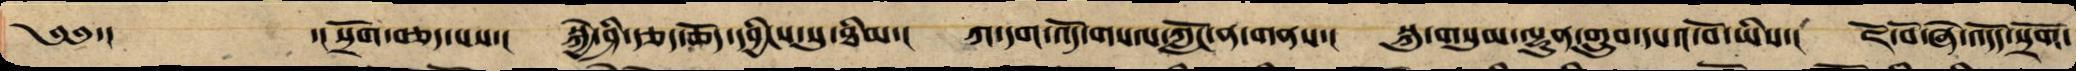༄༅་། ་།སྲོག་བཅད་པས་། སྐྱེ་ཤི་རྩད་ཆོད་དབྱིངས་སུ་ཐིམ་། ཀ་དག་འོད་གསལ་ཀློང་ན་གནས་། སྐུ་གསུམ་ལྷུན་གྲུབ་དཔའ་བོ་ཡིས་། ཇོ་བོ་ཞེ་འདོད་སྲོག་
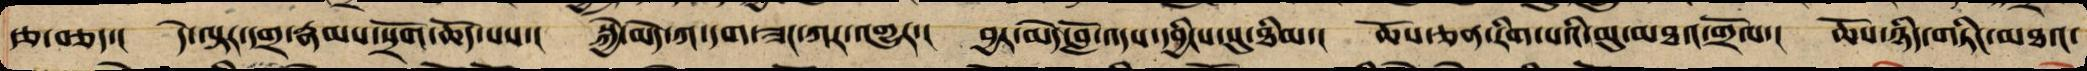རྩ་བཅད་། དེ་ལྟར་དགྲ་རྣམས་སྲོག་ཆོད་པས་། སྐྱེ་མེད་ཀ་དག་ཟང་ཀར་འགྱུར་། བྱར་མེད་བློ་འདས་དབྱིངས་སུ་ཐིམ་། ཆོས་ཅན་རིག་པའི་མུ་མཐའ་གྲོལ་། ཆོས་ཉིད་གཏིང་མཐའ་
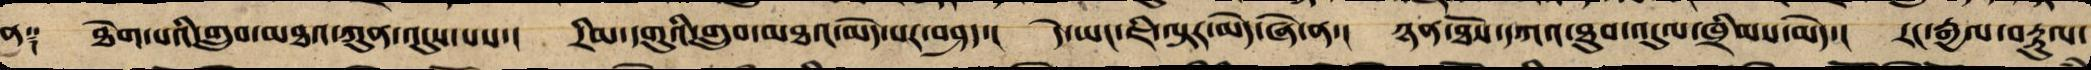ན༑ ཐེག་པའི་གྲུབ་མཐའ་ཀུན་འདུས་པས་། རིམ་དགུའི་གྲུབ་མཐའ་མེད་པར་བཤད་། དེ་ཡང་ཇི་ལྟར་མེད་ཞེ་ན་། ཉན་ཐོས་དཀའ་ཐུབ་འདུལ་ཁྲིམས་མེད་། རང་རྒྱལ་བརྟུལ་
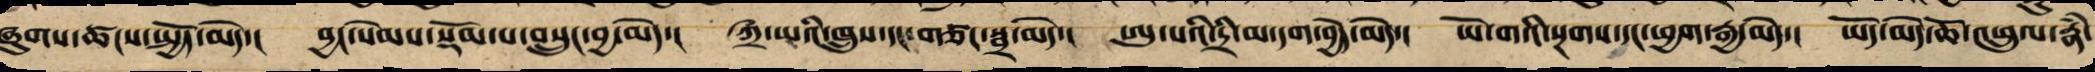ཞུགས་ཚངས་སྤྱོད་མེད་། བྱང་སེམས་སྡོམ་པ་བསྲུང་བྱ་མེད་། ཀྲྀ་ཡའི་ཁྲུས་དང་གཙང་སྦྲ་མེད་། ཨུ་པའི་དྲི་མ་དག་བྱེད་མེད་། ཡོ་གའི་སྔགས་དང་ཕྱག་རྒྱ་མེད་། ཡོད་མེད་ཆོ་འཕྲུལ་རྣཾ་
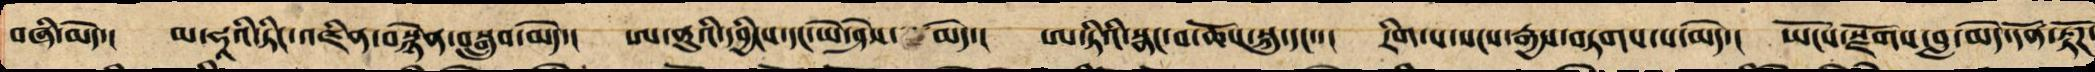བཞི་མེད་། མ་ཧཱའི་ཏིང་འཛིན་བསྙེན་བསྒྲུབ་མེད་། ཨ་ནུའི་དབྱིངས་དང་ཡེ་ཤེས་མེད་། ཨ་ཏིའི་སྣང་བ་ཆོས་སྐུ་དང་་། རིག་པ་སངས་རྒྱས་བཏགས་པ་མེད་། ཡོངས་རྫོགས་བླ་མེད་དོན་རྟོཌ་
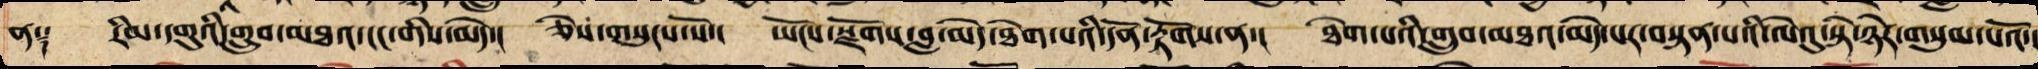ན༑ རིམ་དགུའི་གྲུབ་མཐའ་ངང་གིས་མེད་། ཅེས་གསུངས་སོ་། ཡོངས་རྫོགས་བླ་མེད་ཐེག་པའི་དོན་རྟོགས་ན་། ཐེག་པའི་གྲུབ་མཐའ་མེད་པར་བསྟན་པའི་ལེའུ་སྟེ་ཉེར་གསུམ་པའོ་།།
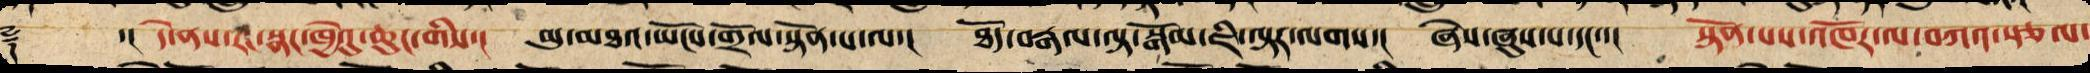༈ ་།། དེ་ནས་རང་སྣང་ཁྱེའུ་ཆུང་གིས་། མུ་མཐའ་ཡོངས་གྲོལ་སྟོན་པ་ལ་། ཐོད་རྒལ་ལྟ་སྒོམ་ཇི་ལྟར་ལགས་། ཞེས་ཞུས་པ་དང་་། སྟོན་པས་འཁོར་ལ་བཀའ་སྩལ་
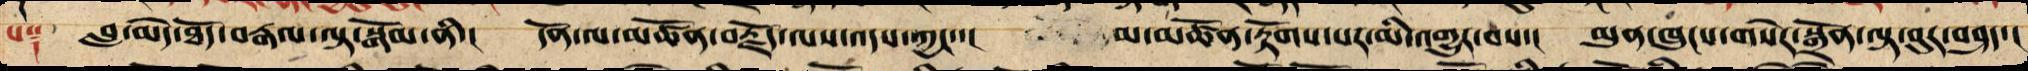པ༑ བླ་མེད་ཐོད་རྒལ་ལྟ་སྒོམ་ནི་། དོན་ལ་མཚོན་བརྗོད་ལས་འདས་ཀྱང་་། མ་མཚོན་རྟོགས་པར་མི་འགྱུར་བས་། མུན་ཁུང་གསེར་སྒྲོན་ལྟ་བུར་བཤད་།
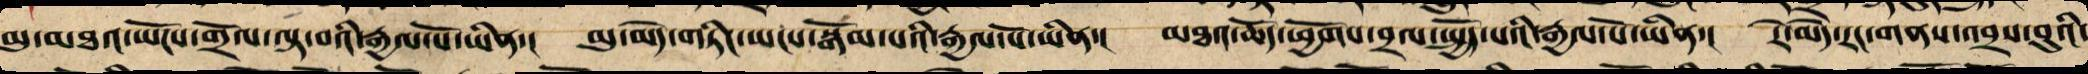མུ་མཐའ་ཡོངས་གྲོལ་ལྟ་བའི་རྒྱལ་པོ་ཡིན་། མུ་མེད་གཏིང་ཡངས་སྒོམ་པའི་རྒྱལ་པོ་ཡིན་། མཐའ་ཆོད་ཕྱོགས་བྲལ་སྤྱོད་པའི་རྒྱལ་པོ་ཡིན་། རེ་མེད་རང་གནས་འབྲས་བུའི་
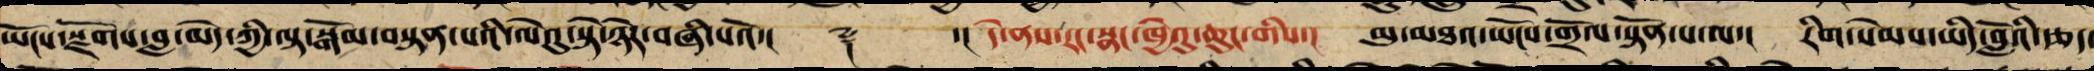ཡོངས་སྫོགས་བླ་མེད་ཀྱི་ལྟ་བསྒོམ་བསྟན་པའི་ལེའུ་སྟེ་ཉེར་བཞི་པའོ་།། ༈ ་།། དེ་ནས་རང་སྣང་ཁྱེའུ་ཆུང་གིས་། མུ་མཐའ་ཡོངས་གྲོལ་སྟོན་པ་ལ་། རིག་སེམས་ཡིད་བློའི་རྩད་
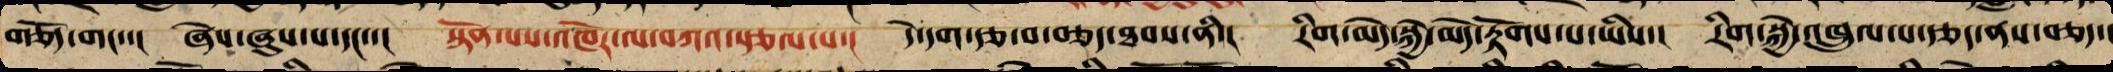གཅོད་གང་་། ཞེས་ཞུས་པ་དང་་། སྟོན་པས་འཁོར་ལ་བཀའ་སྩལ་པ་། དེ་དག་རྩ་བ་བཅད་ཐབས་ནི་། རིག་མེད་སྐྱེ་མེད་རྟོགས་པ་ཡིས་། རིག་སྐྱེ་འཁྲུལ་པ་རྩད་ནས་བཅད་།
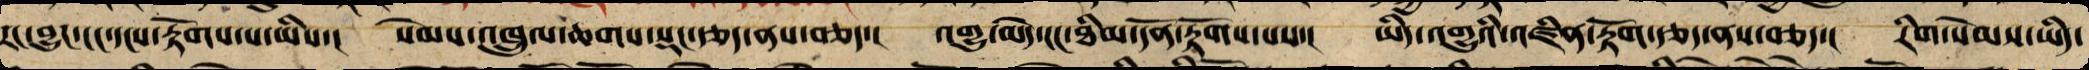རང་བྱུང་ངང་དངས་རྟོགས་པ་ཡིས་། སེམས་འཁྲུལ་ཆགས་སྡང་རྩད་ནས་བཅད་། འགྱུ་མེད་ངང་ཐིམ་དོན་རྟོགས་པས་། ཡིད་འགྱུའི་འཛིན་རྟོག་རྩད་ནས་བཅད་། རིག་སེམས་ཡིད་
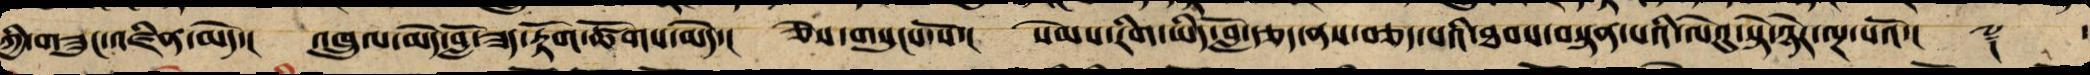ཀྱི་གཟུང་འཛིན་མེད་། འཁྲུལ་མེད་བློ་ཟད་རྟོག་ཚོགས་མེད་། ཅེས་གསུངས་སོ་། སེམས་རིག་ཡིད་བློ་རྩད་ནས་བཅད་པའི་ཐབས་བསྟན་པའི་ལེའུ་སྟེ་ཉེར་ལྔ་པའོ་།། ༈ ་
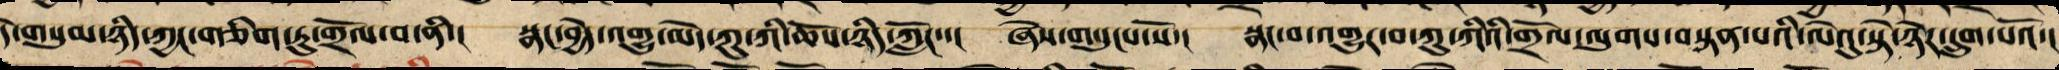དེ་གསུམ་ཉིད་ཀྱང་གཅིག་ཏུ་གྲོལ་བ་ནི་། སྣང་བྱེད་འགྱུ་མེད་ཀུ་ཀི་ཆོས་ཉིད་ཀློང་། ཞེས་གསུངས་སོ་། སྣང་བ་འགྱུར་བ་ཀུ་ཀིའི་གྲོལ་ལུགས་བསྟན་པའི་ལེའུ་སྟེ་ཉེར་དྲུག་པའོ་།
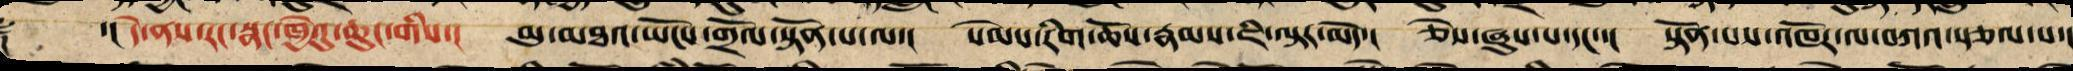་། དེ་ནས་རང་ཁྱེའུ་ཆུང་མིས་། མུ་མཐའ་ཡོངས་གྲོལ་སྟོན་པ་ལ་། སེམས་རིག་ཆོས་རྣམས་ཇི་ལྟར་མེད་། ཅེས་གསུངས་སོ་། སྟོན་པས་འཁོར་ལ་བཀའ་རྩལ་པ་།
